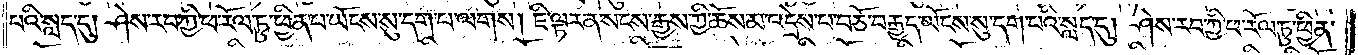པའི་སླད་དུ། ཤེས་རབ་ཀྱི་ཕ་རོལ་ཏུ་ཕྱིན་པ་ཡོངས་སུ་དག་པ་ལགས། ཇི་ལྟར་ན་སངས་རྒྱས་ཀྱི་ཆོས་མ་འདྲེས་པ་བཅོ་བརྒྱད་ཡོངས་སུ་དག་པའི་སླད་དུ། ཤེས་རབ་ཀྱི་ཕ་རོལ་ཏུ་ཕྱིན་
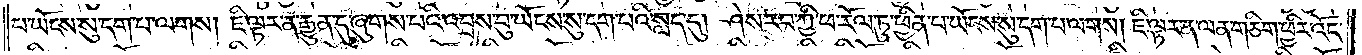པ་ཡོངས་སུ་དག་པ་ལགས། ཇི་ལྟར་ན་རྒྱུན་དུ་ཞུགས་པའི་འབྲས་བུ་ཡོངས་སུ་དག་པའི་སླད་དུ། ཤེས་རབ་ཀྱི་ཕ་རོལ་ཏུ་ཕྱིན་པ་ཡོངས་སུ་དག་པ་ལགས། ཇི་ལྟར་ན་ལན་གཅིག་ཕྱིར་འོང་
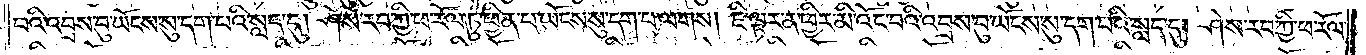བའི་འབྲས་བུ་ཡོངས་སུ་དག་པའི་སླད་དུ། ཤེས་རབ་ཀྱི་ཕ་རོལ་ཏུ་ཕྱིན་པ་ཡོངས་སུ་དག་པ་ལགས། ཇི་ལྟར་ན་ཕྱིར་མི་འོང་བའི་འབྲས་བུ་ཡོངས་སུ་དག་པའི་སླད་དུ། ཤེས་རབ་ཀྱི་ཕ་རོལ་
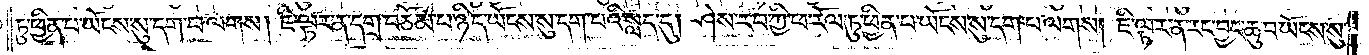ཏུ་ཕྱིན་པ་ཡོངས་སུ་དག་པ་ལགས། ཇི་ལྟར་ན་དགྲ་བཅོམ་པ་ཉིད་ཡོངས་སུ་དག་པའི་སླད་དུ། ཤེས་རབ་ཀྱི་ཕ་རོལ་ཏུ་ཕྱིན་པ་ཡོངས་སུ་དག་པ་ལགས། ཇི་ལྟར་ན་རང་བྱང་ཆུབ་ཡོངས་སུ་
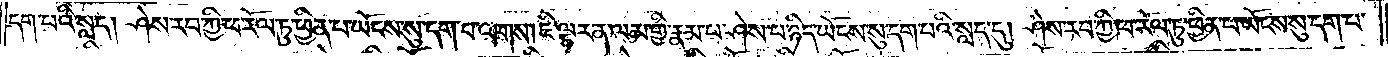དག་པའི་སླད་དུ། ཤེས་རབ་ཀྱི་ཕ་རོལ་ཏུ་ཕྱིན་པ་ཡོངས་སུ་དག་པ་ལགས། ཇི་ལྟར་ན་ལམ་གྱི་རྣམ་པ་ཤེས་པ་ཉིད་ཡོངས་སུ་དག་པའི་སླད་དུ། ཤེས་རབ་ཀྱི་ཕ་རོལ་ཏུ་ཕྱིན་པ་ཡོངས་སུ་དག་པ་
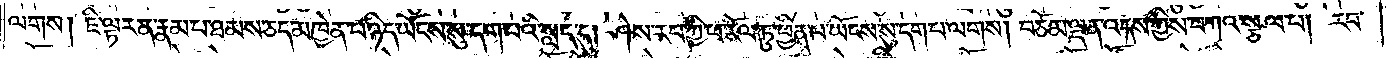ལགས། ཇི་ལྟར་ན་རྣམ་པ་ཐམས་ཅད་མཁྱེན་པ་ཉིད་ཡོངས་སུ་དག་པའི་སླད་དུ། ཤེས་རབ་ཀྱི་ཕ་རོལ་ཏུ་ཕྱིན་པ་ཡོངས་སུ་དག་པ་ལགས། བཅོམ་ལྡན་འདས་ཀྱིས་བཀའ་སྩལ་པ། རབ་
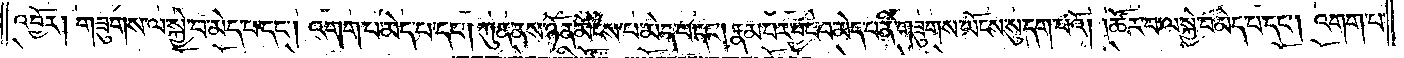འབྱོར། གཟུགས་ལ་སྐྱེ་བ་མེད་པ་དང༌། འགག་པ་མེད་པ་དང༌། ཀུན་ནས་ཉོན་མོངས་པ་མེད་པ་དང༌། རྣམ་པར་བྱང་བ་མེད་པ་ནི་གཟུགས་ཡོངས་སུ་དག་པའོ། །ཚོར་བ་ལ་སྐྱེ་བ་མེད་པ་དང༌། འགག་པ་
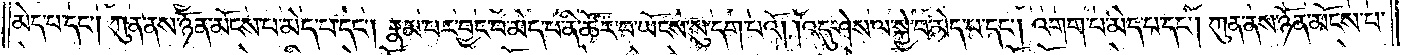མེད་པ་དང༌། ཀུན་ནས་ཉོན་མོངས་པ་མེད་པ་དང༌། རྣམ་པར་བྱང་བ་མེད་པ་ནི་ཚོར་བ་ཡོངས་སུ་དག་པའོ། །འདུ་ཤེས་ལ་སྐྱེ་བ་མེད་པ་དང༌། འགག་པ་མེད་པ་དང༌། ཀུན་ནས་ཉོན་མོངས་པ་
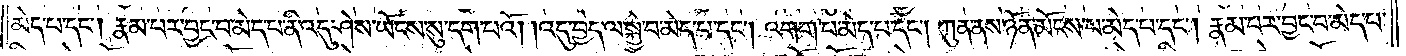མེད་པ་དང༌། རྣམ་པར་བྱང་བ་མེད་པ་ནི་འདུ་ཤེས་ཡོངས་སུ་དག་པའོ། །འདུ་བྱེད་ལ་སྐྱེ་བ་མེད་པ་དང༌། འགག་པ་མེད་པ་དང༌། ཀུན་ནས་ཉོན་མོངས་པ་མེད་པ་དང༌། རྣམ་པར་བྱང་བ་མེད་པ་
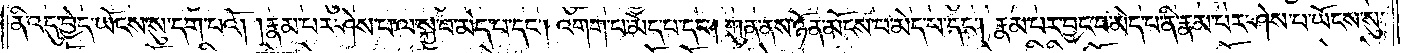ནི་འདུ་བྱེད་ཡོངས་སུ་དག་པའོ། །རྣམ་པར་ཤེས་པ་ལ་སྐྱེ་བ་མེད་པ་དང༌། འགག་པ་མེད་པ་དང༌། ཀུན་ནས་ཉོན་མོངས་པ་མེད་པ་དང༌། རྣམ་པར་བྱང་བ་མེད་པ་རྣམ་པར་ཤེས་པ་ཡོངས་སུ་
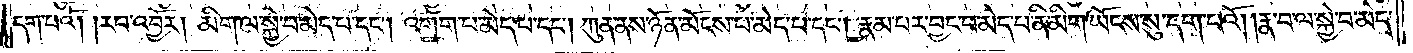དག་པའོ། །རབ་འབྱོར། མིག་ལ་སྐྱེ་བ་མེད་པ་དང༌། འགག་པ་མེད་པ་དང༌། ཀུན་ནས་ཉོན་མོངས་པ་མེད་པ་དང༌། རྣམ་པར་བྱང་བ་མེད་པ་ནི་མིག་ཡོངས་སུ་དག་པའོ། །རྣ་བ་ལ་སྐྱེ་བ་མེད་
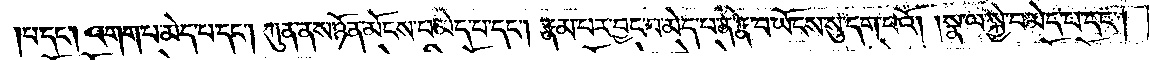པ་དང༌། འགག་པ་མེད་པ་དང༌། ཀུན་ནས་ཉོན་མོངས་པ་མེད་པ་དང༌། རྣམ་པར་བྱང་བ་མེད་པ་ནི་རྣ་བ་ཡོངས་སུ་དག་པའོ། །སྣ་ལ་སྐྱེ་བ་མེད་པ་དང༌།
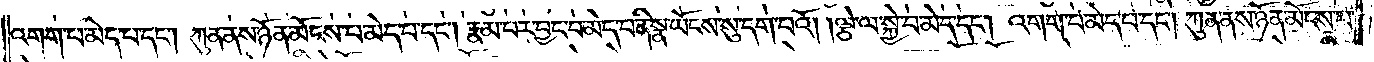འགག་པ་མེད་པ་དང༌། ཀུན་ནས་ཉོན་མོངས་པ་མེད་པ་དང༌། རྣམ་པར་བྱང་བ་མེད་པ་ནི་སྣ་ཡོངས་སུ་དག་པའོ། །ལྕེ་ལ་སྐྱེ་བ་མེད་པ་དང༌། འགག་པ་མེད་པ་དང༌། ཀུན་ནས་ཉོན་མོངས་པ་
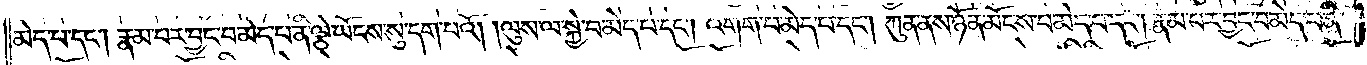མེད་པ་དང༌། རྣམ་པར་བྱང་བ་མེད་པ་ནི་ལྕེ་ཡོངས་སུ་དག་པའོ། །ལུས་ལ་སྐྱེ་བ་མེད་པ་དང༌། འགག་པ་མེད་པ་དང༌། ཀུན་ནས་ཉོན་མོངས་པ་མེད་པ་དང༌། རྣམ་པར་བྱང་བ་མེད་པ་ནི་
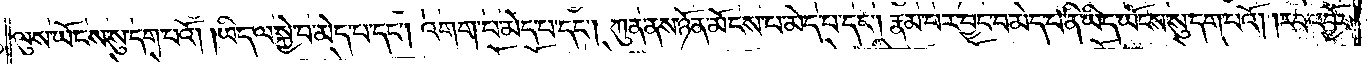ལུས་ཡོངས་སུ་དག་པའོ། །ཡིད་ལ་སྐྱེ་བ་མེད་པ་དང༌། འགག་པ་མེད་པ་དང༌། ཀུན་ནས་ཉོན་མོངས་པ་མེད་པ་དང༌། རྣམ་པར་བྱང་བ་མེད་པ་ནི་ཡིད་ཡོངས་སུ་དག་པའོ། །རབ་འབྱོར།
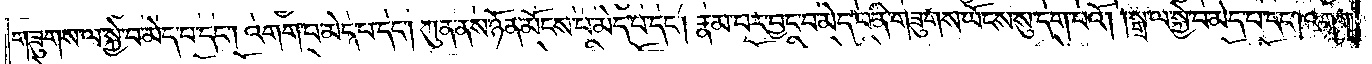གཟུགས་ལ་སྐྱེ་བ་མེད་པ་དང༌། འགག་པ་མེད་པ་དང༌། ཀུན་ནས་ཉོན་མོངས་པ་མེད་པ་དང༌། རྣམ་པར་བྱང་བ་མེད་པ་ནི་གཟུགས་ཡོངས་སུ་དག་པའོ། །སྒྲ་ལ་སྐྱེ་བ་མེད་པ་དང༌། འགག་
